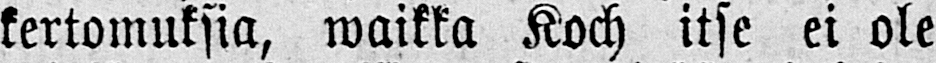kertomuksia, waikka Koch itse ei ole
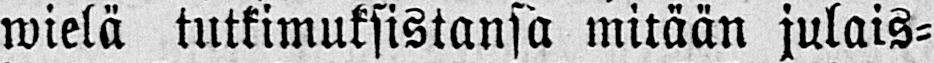wielä tutkimuksistansä mitään julais-
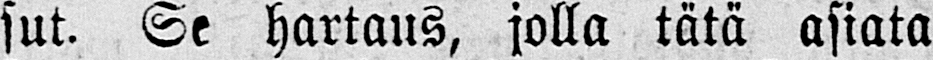sut. Se hartaus, jolla tätä asiata
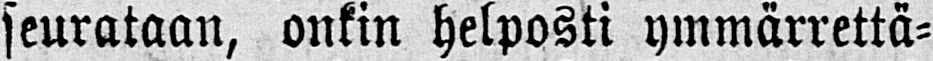seurataan, onkin helposti ymmärrettä-
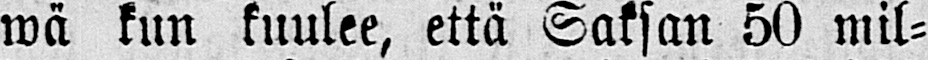wä kun kuulee, että Saksan 50 mil-
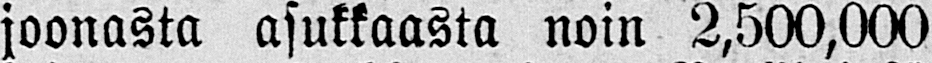joonasta asukkaasta noin 2,500,000
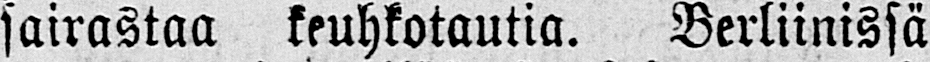sairastaa keuhkotautia. Berliinissä
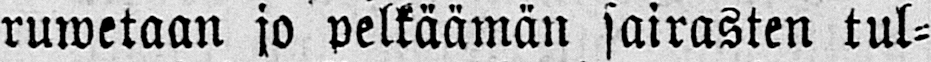ruwetaan jo pelkäämän sairasten tul-
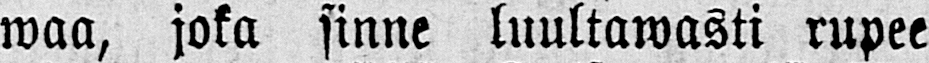waa, joka sinne luultawasti rupee
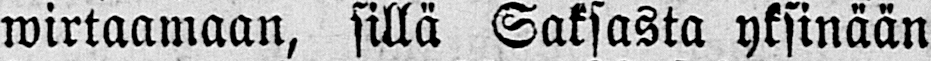wirtaamaan, sillä Saksasta yksinään
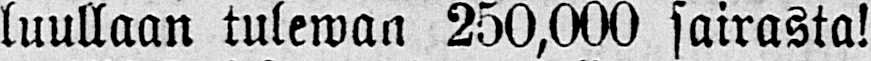luullaan tulewan 250,000 sairasta!
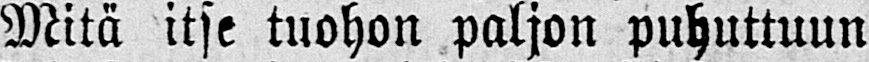Mitä itse tuohon paljon puhuttuun
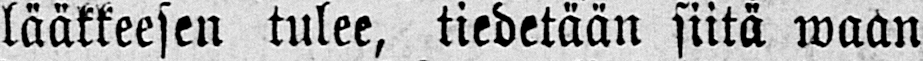lääkkeesen tulee, tiedetään siitä waan
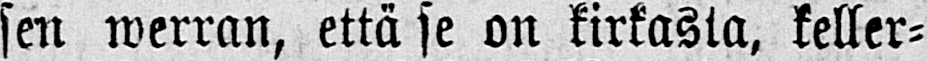sen werran, että se on kirkasta, keller-
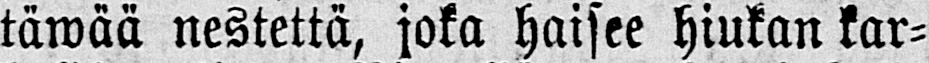täwää nestettä, joka haisee hiukan kar-
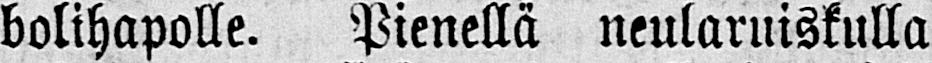bolihapolle. Pienellä neularuiskulla
